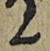2
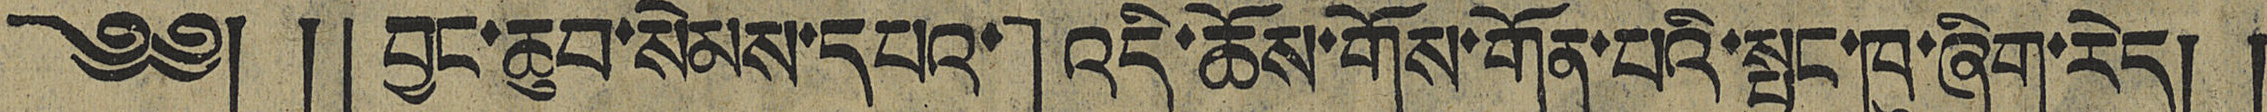༄༅། །「བྱང་ཆུབ་སེམས་དཔའ་」འདི་ཆོས་གོས་གོན་པའི་སྤྱང་ཁུ་ཞིག་རེད། །
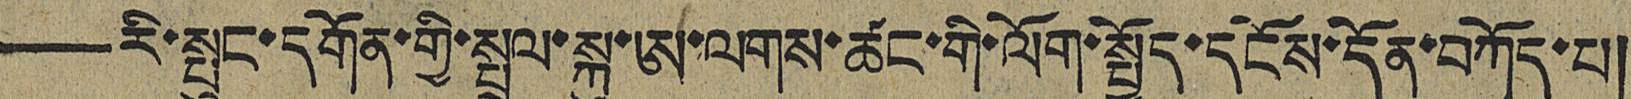——རི་སྤུང་དགོན་གྱི་སྤྲུལ་སྐུ་ཨ་ལགས་ཚང་གི་ལོག་སྤྱོད་དངོས་དོན་བཀོད་པ།
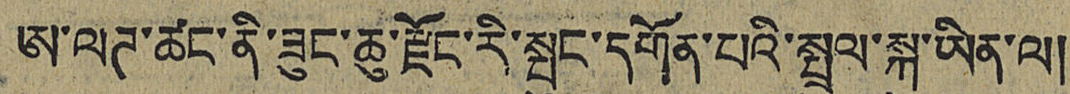ཨ་ལཊ་ཚང་ནི་ཟུང་ཆུ་རྫོང་རི་སྤུང་དགོན་པའི་སྤྲུལ་སྐུ་ཡིན་ལ།
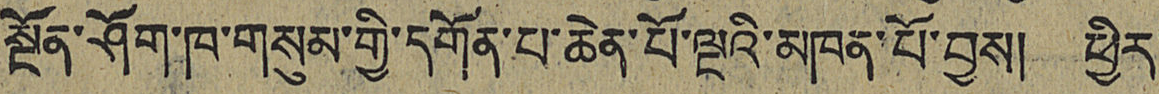སྔོན་ཤོག་ཁ་གསུམ་གྱི་དགོན་པ་ཆེན་པོ་ལྔའི་མཁན་པོ་བྱས། ཕྱིར་
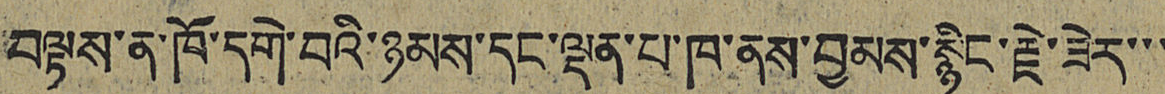བལྟས་ན་ཁོ་དགེ་བའི་ཉམས་དང་ལྡན་པ་ཁ་ནས་བྱམས་སྙིང་རྗེ་ཟེར་་་
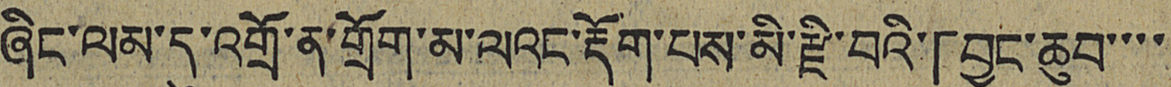ཞིང་ལམ་དུ་འགྲོ་ན་གྲོག་མ་ལའང་རྡོག་པས་མི་རྫི་བའི་「བྱང་ཆུབ་་་་
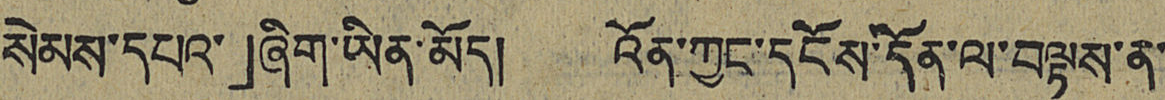སེམས་དཔའ་」ཞིག་ཡིན་མོད། འོན་ཀྱང་དངོས་དོན་ལ་བལྟས་ན་
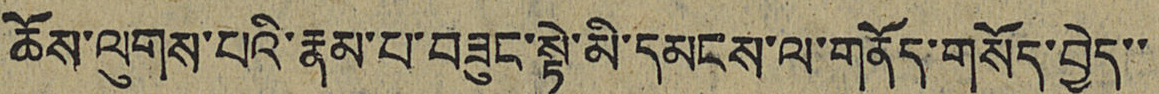ཆོས་ལུགས་པའི་རྣམ་པ་བཟུང་སྟེ་མི་དམངས་ལ་གནོད་གསོད་བྱེད་་་
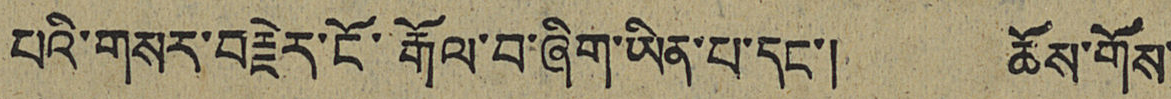པའི་གསར་བརྗེར་ངོ་རྒོལ་བ་ཞིག་ཡིན་པ་དང་། ཆོས་གོས་
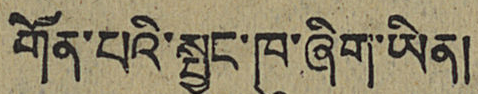གོན་པའི་སྤྱང་ཁུ་ཞིག་ཡིན།
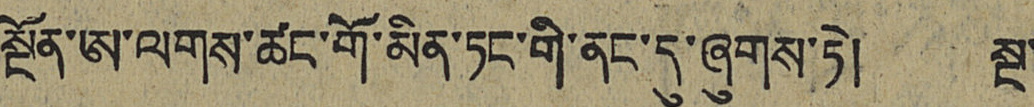སྔོན་ཨ་ལགས་ཚང་གོ་མིན་ཏང་གི་ནང་དུ་ཞུགས་ཏེ། སྔ་
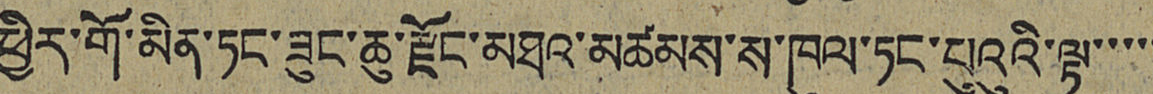ཕྱིར་གོ་མིན་ཏང་ཟུང་ཆུ་རྫོང་མཐའ་མཚམས་ས་ཁུལ་ཏང་པུའུའི་ལྟ་་་་་
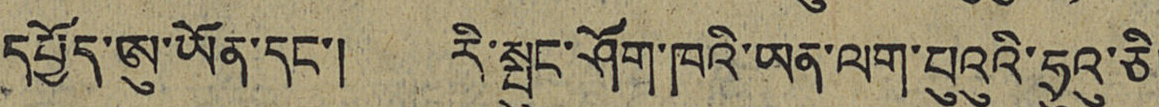དཔྱོད་ཨུ་ཡོན་དང་། རི་སྤུང་ཤོག་ཁའི་ཡན་ལག་པུའུའི་ཧྲུའུ་ཅི།
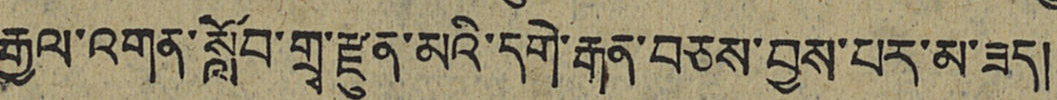རྒྱལ་འགན་སློབ་གྲྭ་རྫུན་མའི་དགེ་རྒན་བཅས་བྱས་པར་མ་ཟད།
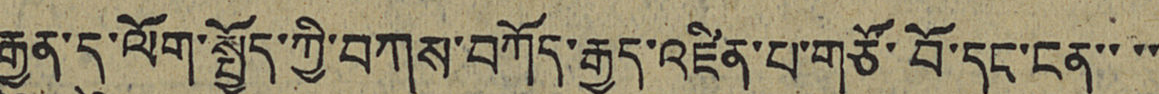རྒྱུན་དུ་ལོག་སྤྱོད་ཀྱི་བཀས་བཀོད་རྒྱུད་འཛིན་པ་གཙོ་བོ་དང་ངན་་་་
